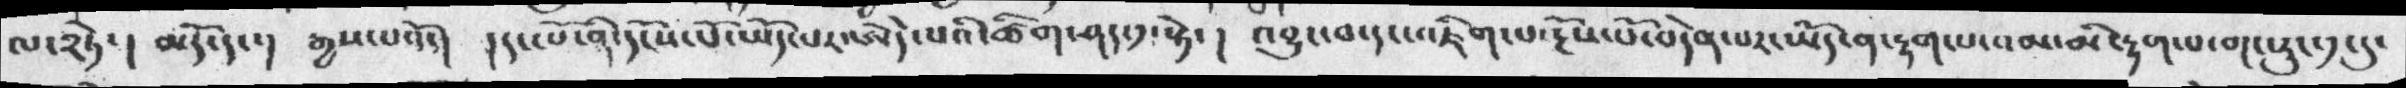ལ་༢ཏེ་། མདོ་དང་། རྒྱས་པའོ་། །དང་པོ་ནི་དངོས་པོ་ཡོད་པར་ཨེདེ་པའི་ཚིག་ཤད་༡་སྟེ་། འབྱུང་བ་དང་འཇིག་པ་རྔོས་པོ་བདེན་པར་ཡོད་ན་རྟག་པ་འམ་མི་རྟག་པ་གང་རུང་༡་དུ་
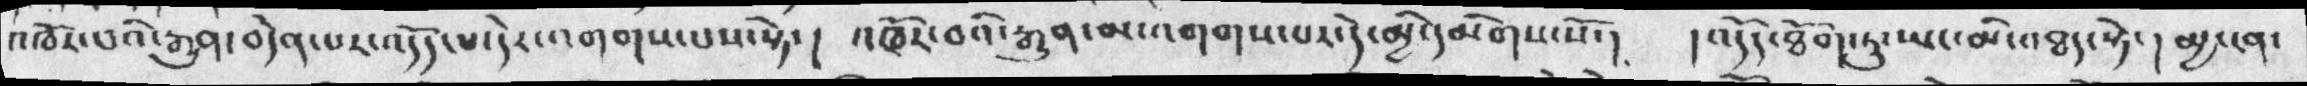འཁོར་བའི་རྒྱུན་བདེན་པར་འདོད་པ་དེར་འགགས་པས་སྟེ་། འཁོར་བའི་རྒྱུན་མ་འགགས་པར་དེ་མྱི་དམིགས་སོ་།  །འདོད་ཐོག་ཏུ་ཡང་མི་འཐད་སྟེ་། མྱ་ངན་
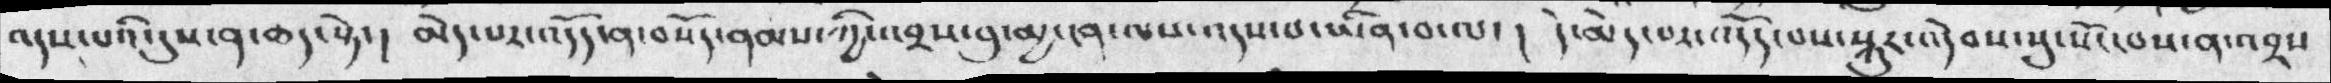འདས་པའི་དུས་ན་ཆད་སྟེ་། མེད་པར་འདོད་ན་བསོད་ནམས་ཀྱིས་འབྲས་བུ་མྱ་ངན་ལས་འདས་པ་ཡིན་བ་ལ་། དེ་མེད་པར་འདོད་པས་སྐུར་འདེབས་སུ་སོང་བས་ན་འབྲས་
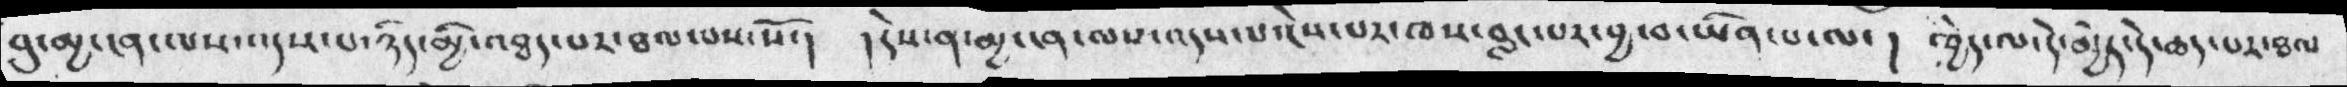བུ་མྱ་ངན་ལས་འདས་པ་ཉིད་མྱི་འཐད་པར་ཐལ་བས་སོ་།  །དེས་ན་མྱ་ངན་ལས་འདས་པ་ངེས་པར་ཁས་བླང་པར་བྱ་བ་ཡིན་པ་ལ་། ཁྱེད་ལ་དེ་མྱེད་དེ་ཆད་པར་ཐལ
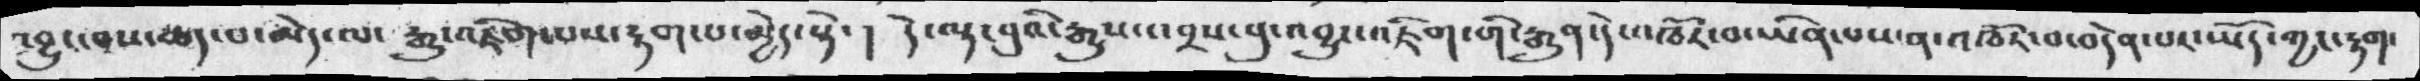འབྱུང་བས་ཆད་པ་མེད་ལ་ རྒྱུ་འཇིག་པས་རྟག་པ་མྱེད་སྟེ་། དེ་ལྟ་བུའི་རྒྱུས་འབྲས་བུ་འབྱུང་འཇིག་གི་རྒྱུན་དེ་འཁོར་བ་ཡིན་པས་ན་འཁོར་བ་བདེན་པར་ཡོད་ཀྱང་རྟག་
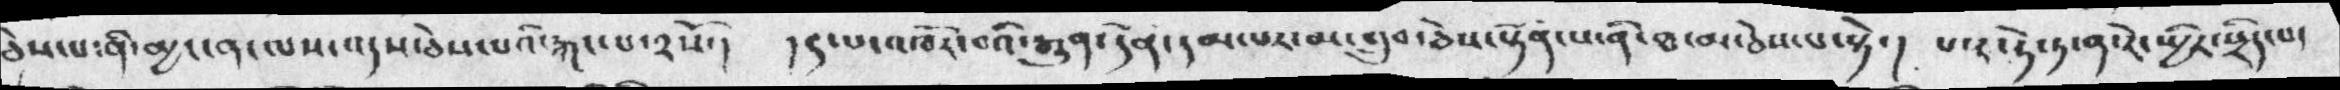ཅེས་པ་ནི་མྱ་ངན་ལས་འདས་ཅེས་པའི་རྐང་པ་༢སོ་།  །༤པ་འཁོར་བའི་རྒུན་དོན་དམ་པར་མ་གྲུབ་ཅེས་སྟོན་པ་ནི་ཐ་མ་ཅེས་པ་སྟེ་།  པ་ར་ཧེ་ཏ་ན་ཏེ་སྤྱིར་སྲིད་པ་
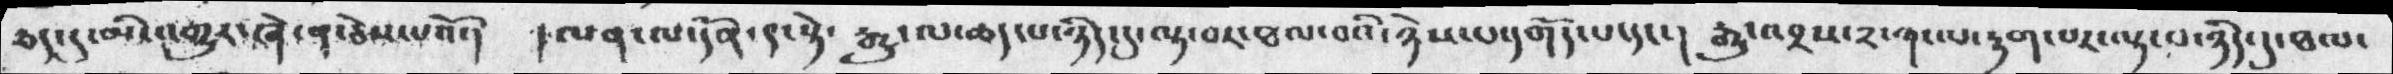ཅད་དུ་མི་འགྱུར་ཞེ་ན་ཅེས་པའོ་།  །ལན་ལ་དོན་༩་སྟེ་ རྒྱུ་ལ་ཆད་པ་ཉིད་དུ་ལྟ་བར་ཐལ་བའི་ཉེས་པ་དགོད་པ་དང་།  རྒྱུ་འབྲས་༢་སྣང་པ་རྟག་པར་ལྟ་བ་ཉིད་དུ་ཐལ་
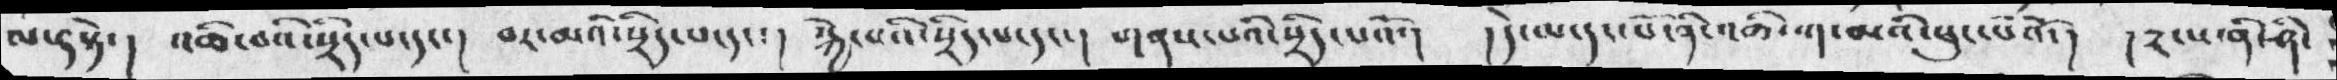ལ་༤སྟེ་།  འཆི་བའི་སྲིད་པ་དང་།  བར་མའི་སྲིད་པ་དང་།  སྐྱེ་བའི་སྲིད་པ་དང་།  གནས་པའི་སྲིད་པའོ་།  །དེ་ལ་དང་པོ་ནི་འཆི་ག་མའི་ཕུང་པའོ་།  །༢་པ་ནི་ཤི་
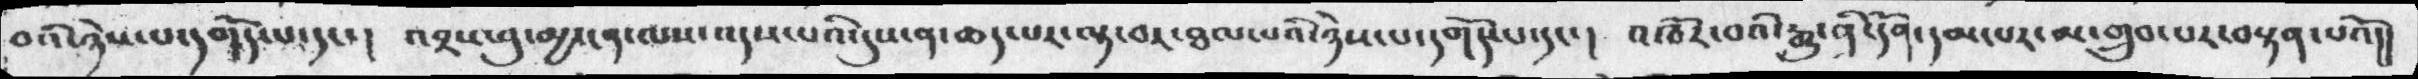བའི་ཉེས་པ་དགོད་པ་དང་།  འབྲས་བུ་མྱ་ངན་ལས་འདས་པའི་དུས་ན་ཆད་པར་ལྟ་བར་ཐལ་པའི་ཉེས་པ་དགོད་པ་དང་།  འཁོར་བའི་རྒྱུ་ནི་དོན་དམ་པར་མ་གྲུབ་པར་བསྟན་པའོ།།
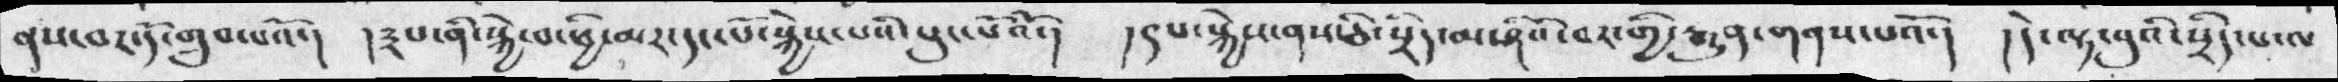ནས་བར་དོ་གྲུབ་པའོ་།  །༣པ་ནི་སྐྱེ་བ་ཕྱི་མར་དང་པོ་སྐྱེས་པའི་ཕུང་པོའོ་།  །༩པ་སྐྱེས་ནས་ཅི་སྲིད་མ་ཤིའོ་བར་གྱི་རྒྱུན་གནས་པའོ་།  ། དེ་ལྟ་བུའི་སྲིད་པ་ལ
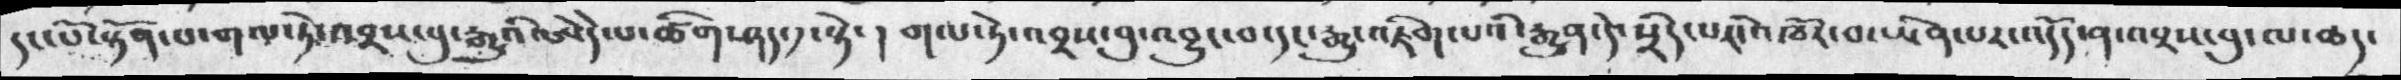དང་པོ་སྟོན་པ་གལ་ཏེ་འབྲས་བུ་རྒྱུའི་ཨེ་དེ་པ་ཚིག་ཤད་༡་སྟེ་།  གལ་ཏེ་འབྲས་བུ་འབྱུང་བ་དང་རྒྱུ་འཇིག་པའི་རྒྱུན་དེ་སྲིད་པར་འཁོར་བ་ཡིན་པར་འདོད་ན་འབྲས་བུ་ལ་ཆད་
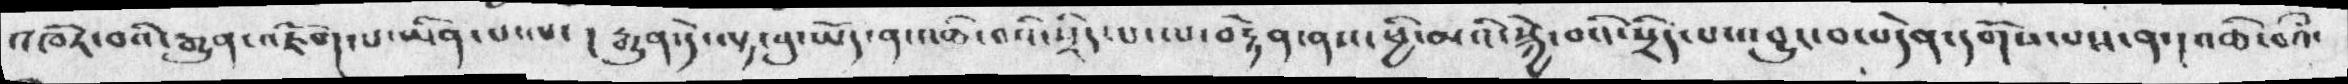འཁོར་བའི་རྒྱུན་འཇོག་པ་ཡིན་པ་ལ་། རྒྱུན་དེ་ལྟ་བུ་ཡོད་ན་འཆི་བའི་སྲིད་པ་ལ་བརྟེན་ནས་ཕྱི་མའི་སྐྱེ་བའི་སྲིད་པ་འབྱུང་བ་བདེན་དགོས་པས་ན་།  འཆི་བའི་
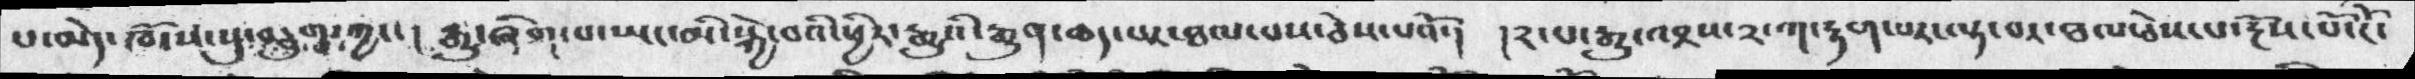པ་མེད་ཁོངས་སུ་བཅུག་ཀྱང་།  རྒྱུ་ཞིག་པ་ཡང་མི་སྐྱེ་བའི་ཕྱིར་རྒྱུའི་རྒྱུན་ཆད་པར་ཐལ་པས་ཅེས་པའོ་།  །༢་པ་རྒྱུ་འབྲས་༢་ཀ་རྟག་པར་ལྟ་བར་ཐལ་ཅེས་པ་རྔོས་པོ་ངོ་
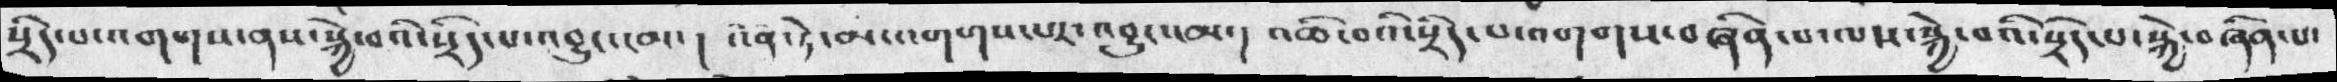སྲིད་པ་འགགས་ནས་སྐྱེ་བའི་སྲིད་པ་འབྱུང་ངམ་།  འོན་ཏེ་མ་འགགས་པར་འབྱུང་ངམ་།  འཆི་བའི་སྲིད་པ་འགགས་བཞིན་པ་ལས་སྐྱེ་པའི་སྲིད་པ་སྐྱེ་བཞིན་པ་
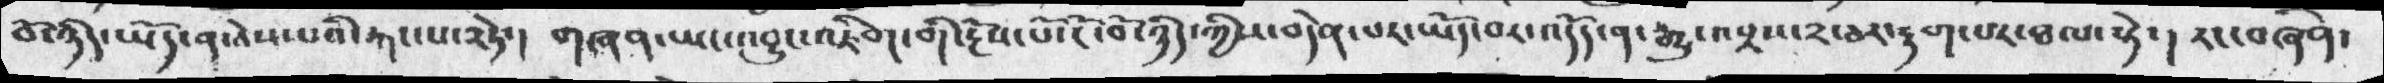བོ་ཉིད་ཡོད་ན་ཅེས་པའི་རྐང་པ་༢ཏེ་།  གཞན་ཡང་འབྱུང་འཇིག་གི་རྔོས་པོ་ངོ་བོ་ཉིད་ཀྱིས་བདེན་པར་ཡོད་བར་འདོད་ན་རྒྱུ་འབྲས་༢་ཅར་རྟག་པར་ཐལ་སྟེ་། རང་བཞིན་
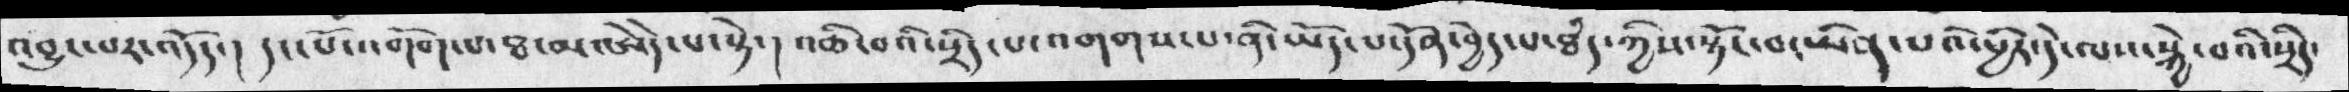འབྱུང་པར་འདོད་།  དང་པོ་འགོག་པ་ཐ་མ་ཨེདེ་པ་སྟེ་།  འཆི་བའི་སྲིད་པ་འགགས་པ་ནི་ཡོད་པ་དོན་བྱེད་པ་ཐཾད་ཀྱིས་སྟོང་བ་ཡིན་པའི་ཕྱིར་དེ་ལས་སྐྱེ་པའི་སྲིད་
